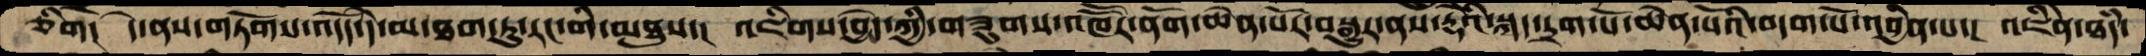ཅིག།  དེ་ནས་གཏོགས་འདོད་དེ་མ་ཐག་ཏུ་རང་གི་མཐུས་།  འཇིགས་བྱེད་ཀྱི་གཟུགས་འཁཽར་ནགོ་ཆེན་པོར་བསྒྱུར་ནས་རྡོའི་སྐད་དྲག་པོ་ཆེན་པོའི་བདག་པོ་འབྱིན་པ་།  འཇིནེ་ཐདཾ་
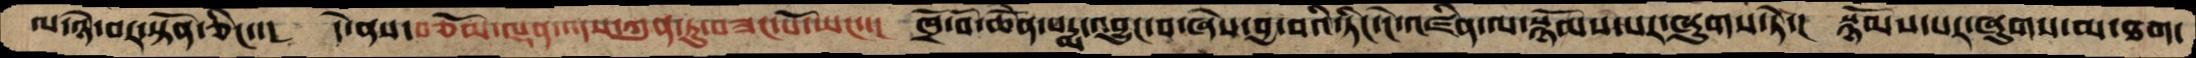ལ་ཉེ་བར་སྟོན་ཅིང་་།  དེ་ནས་བཅོམ་ལྡན་འདས་ཀུན་ཏུ་བཟང་པོ་ཡང་་།  ཁྲོ་བོ་ཆེནོ་པདྨ་འབྱུང་བ་ཞེས་བྱ་བའི་ཏིང་ངེ་འཛིན་ལ་སྙོམས་པར་ཞུགས་ཏེ་།  སྙོམས་པར་ཞུགས་མ་ཐག་
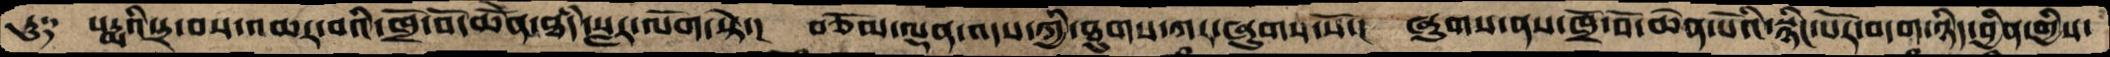ཏུ༑  པདྨའི་དྲ་བས་འཆར་བའི་ཁྲོ་བོ་ཆེནོ་ཐདཾ་སླར་ལོག་སྟེ་།  བཅོམ་ལྡན་འདས་ཀྱི་ཐུགས་ཀར་ཞུགས་སོ་།  ཞུགས་ནས་ཁྲོ་བོ་ཆེན་པོའི་སྙིང་པོར་བདག་ཉིད་བྱིན་གྱིས་
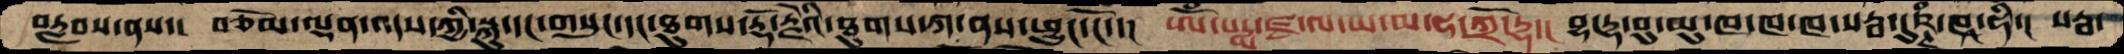བརླབས་ནས་།  བཅོམ་ལྡན་འདས་ཀྱི་སྐུ་དང་གསུང་དང་ཐུགས་རྡོ་རྗེའི་ཐུགས་ཀ་ནས་ཕྱུང་ངོ་་།  ཨོཾ་པདྨ་ཛྭ་ལ་ཡ་མ་ཧ་ཀྲོ་དྷ་། བྷ་དྷ་བུ་མུ་ཁ་ཁ་ཁ་སརྦ་དུཥྚཾ་ཁཱ་ཧི་།  སརྦ་
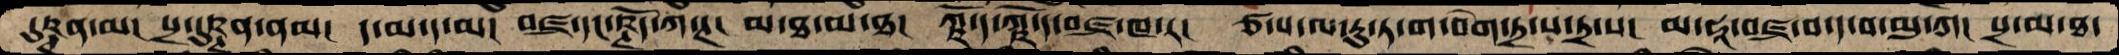དུཥྚན་མ། པྲ་དུཥྚན་ནམ།  ད་མ་ད་མ།  བཛྲ་དང་ཥྚོད་ཀ་ཊ།  མ་ཐ་མ་ཐ།  ཀྵོ་ད་ཀྵོ་ད་བཛྲ་ཁ་ར།  ཙ་པ་ལ་རུ་ཏ་ག་བེག་ཏྲ་ས་ཏྲ་ས།  མ་ཧཱ་བཛྲ་བ་ད་བ་མུ་ཀ།  པྲ་མ་ཐ་
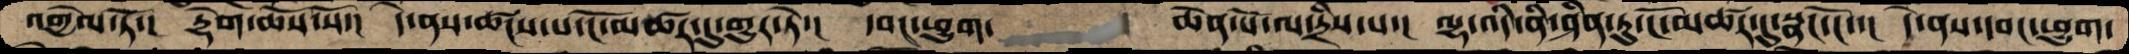འགྱེལ་ཏོ་།  རྡེག་ཆོས་སོ་།  དེ་ནས་ཚངས་པ་ངོ་མཚར་དུ་གྱུར་ཏེ་།  དབང་ཕྱུག་       ཆེན་པོ་ལ་དྲིས་པ།  ལྷ་འདི་ནི་ཤིན་ཏུ་ངོ་མཚར་དུ་སྣང་ངོ་་།  དེ་ནས་དབང་ཕྱུག་
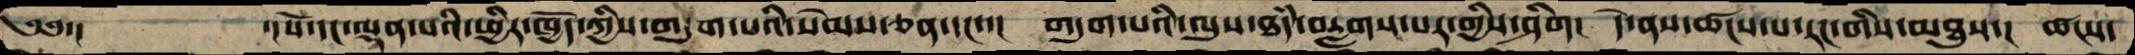༄༅་།   ་།པོ་དང་ལྡན་པའི་ཕྱིར་ཁྱོད་ཀྱིས་གདུག་པའི་སེམས་ཅན་དང་་།  གདུག་པའི་ལུས་ཐདཾ་བརླགས་པར་གྱིས་ཤིག།  དེ་ནས་ཚངས་པ་རང་གིས་མཐུས་།  ཚངས་
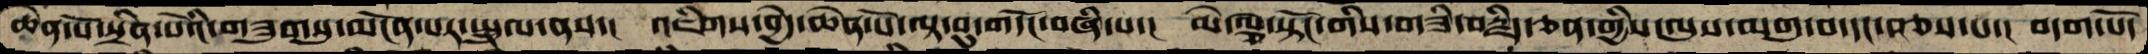ཆེན་པོ་སྲིན་པོའི་གཟུགསུ་མངོན་པར་སྤྲུལ་ནས་།  འཇིགས་བྱེད་ཆེན་པོ་ལྟ་བུ་གདོང་བཞི་པ་།  མེ་ལྕེ་སྟོང་གིས་གཟི་བརྗིད་ཅན་གྱིས་ལུས་མགུ་བ་དང་བཅས་པ་།  བདག་པོ་
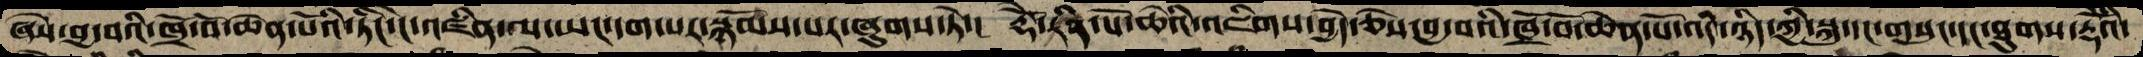ཞེས་བྱ་བའི་ཁྲོ་བོ་ཆེན་པོའི་ཏིང་ངེ་འཛིན་ལ་ཡང་དག་པར་སྙོམས་པར་ཞུགས་ཏེ་།  རྡོེ་རིན་པོ་ཆེའི་འཇིག་བྱེད་ཅེས་བྱ་བའི་ཁྲོ་བོ་ཆེན་པོ་འདི་ཉིད་ཀྱི་སྐུ་དང་གསུང་དང་ཐུགས་རྡོེའི་
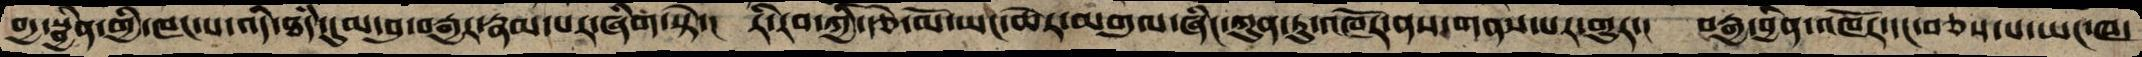བདྱ་སྦྱིན་གྱི་ཁང་པ་འདི་ཐཾད་དུམ་བུ་བརྒྱར་རྣམ་པར་ཞིག་སྟེ་།  རི་རབ་ཀྱི་རྩེ་མོ་ཡང་ཆེར་མགུལ་ཞིང་ཀུན་ཏུ་འཁོར་ནས་གནས་པར་གྱུར་།  བརྒྱ་བྱིན་འཁོར་དང་བཅས་པ་ཡང་ཁ་
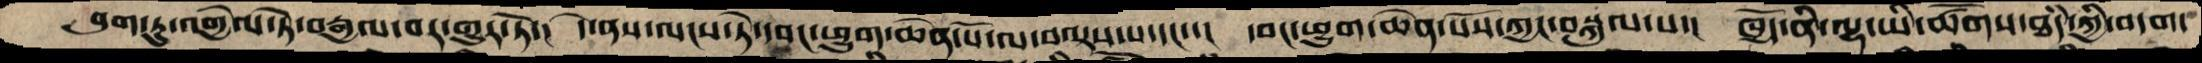བུག་ཏུ་འགྱེལ་ཏེ་བརྒྱལ་བར་གྱུར་ཏོ་།  དེ་ནས་ལངས་ཏེ་དབང་ཕྱུག་ཆེན་པོ་ལ་བལྟས་པ་དང་་།  དབང་ཕྱུག་ཆེན་པོས་ཀྱང་བསྐུལ་པ་།  ཁྱོད་ནི་ལྷ་ཡི་ཚོགས་ཐཾད་ཀྱི་བདག་
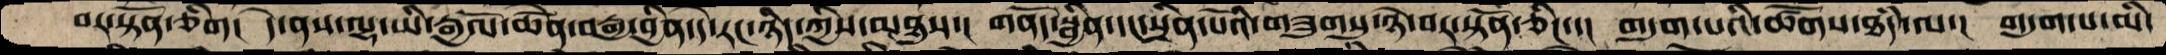བར་སྟོན་ཅིག།  དེ་ནས་ལྷ་ཡི་རྒྱལོ་ཆེནོ་བརྒྱ་བྱིན་དེ་རང་ཉིད་ཀྱིས་མཐུས་།  གནོད་སྦྱིན་དང་སྲིན་པོའི་གཟུགསུ་ཉེ་བར་སྟོན་།  གདུག་པའི་ཚོགས་ཐཾད་ལ་།  གདུག་པ་མི་
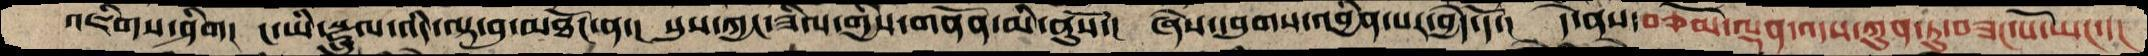འཇིགས་ཤིག།  ང་ཡི་སྫྲུལ་འདི་ལྟ་བུ་མཐོང་ན་།  སུས་ཀྱང་ཟིལ་གྱིས་གནོན་མི་ནུསོ་།  ཞེས་དབུགས་འབྱིན་པར་བྱེད་དོ་།  དེ་ནས་བཅོམ་ལྡན་འདས་ཀུན་ཏུ་བཟང་པོ་ཡང་་།
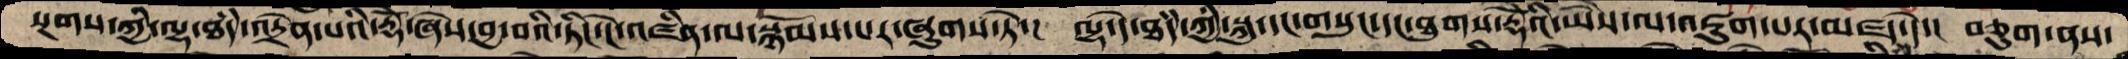སྔགས་ཀྱི་ལྷ་ཐདཾ་འདྲེན་པའི་རྡོེ་ཞེས་བྱ་བའི་ཏིང་ངེ་འཛིན་ལ་སྙོམས་པར་ཞུགས་ཏེ་།  ལྷ་དེ་ཐདཾ་ཀྱི་སྐུ་དང་གསུང་དང་ཐུགས་རྡོེའི་ཡཻས་ལ་འཇུག་པར་མཛད་དེ་།  བཅུག་ནས་
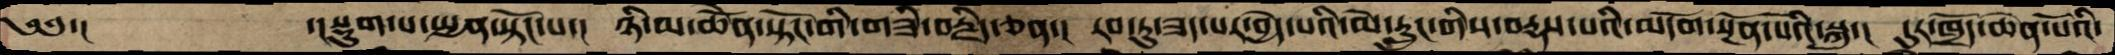༄༅་།    ་།སྡུག་པ་སྤྱན་སྟོང་པ་།  ཉི་མ་ཆེནོ་སྟོང་གི་གཟི་བརྗིད་ཅན་།  རབ་ཏུ་ཟད་པར་བྱེད་པའི་མེ་རླུང་གིས་བརྡས་པའི་མདོག་སྔོན་པོའི་སྐུ་།  དུར་ཁྲོད་ཆེན་པོའི་
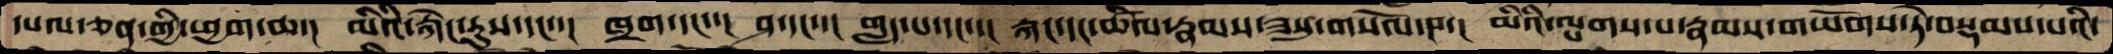དཔལ་ཅན་གྱི་ཕྱག་ཆ་།  མིའི་རྐེང་རུས་དང་་།  ཁྲག་དང་།  ཤ་དང་་།  གླད་པ་དང་་།  རྐང་དང་ཚིལ་རྣམས་ཟསུ་གསོལ་བ་།  མིའི་ལྤགས་པ་རྣམས་གཡོགས་ཏེ་བསྡམས་པའི་
